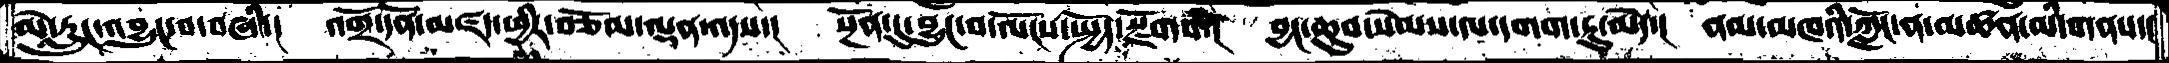མེ་རླུང་འབྱུང་བ་བཞི་།  འགྲོ་དོན་མཛད་ཕྱིར་བཅོམ་ལྡན་འདས་།  སྔོན་དུ་བྱུང་བ་ལོངས་སྤྱོད་སྫོགས་།  བྱང་ཆུབ་སེམས་ལ་དགག་ཏུ་མེད་།  ནམ་མཁའི་ཀློང་ན་མཚན་མི་གནས་།
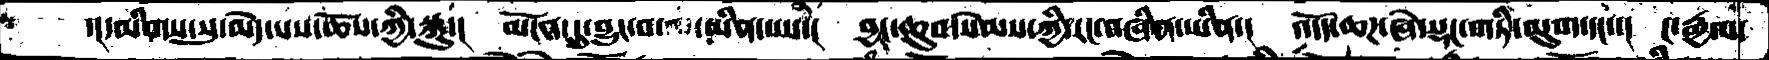་།དམིགས་སུ་མེད་པས་ཆོས་ཀྱི་སྐུ་།  མངོན་དུ་བྱུང་བ་མ་ཡིན་པས་།  བྱང་ཆུབ་སེམས་ཀྱི་རང་བཞིན་ཡིན་།  འདོད་ཆཌ་ཞེ་སྡང་གཏི་མུག་དང་་།  ང་རྒྱལ་
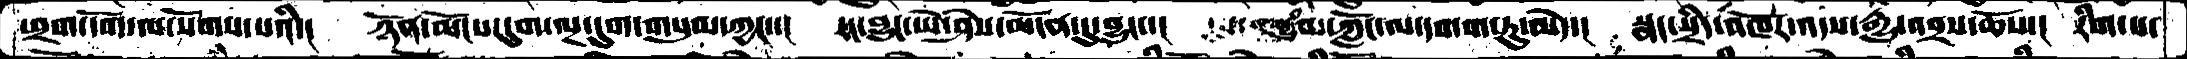ཕྲག་དོག་ལ་སོགས་པའི་།  ཉོན་མོངས་དུག་ལྔ་དུག་གསུམ་ཀྱང་་།  རང་བྱུང་ཡེ་ཤེས་མངོན་དུ་བྱུང་་།  བྱུཾབ་ཀློང་ལ་དགག་ཏུ་མེད་།  སྣང་སྲིད་འཁོར་འདས་རྒྱུ་འབྲས་ཆོས་།  རིག་པ་
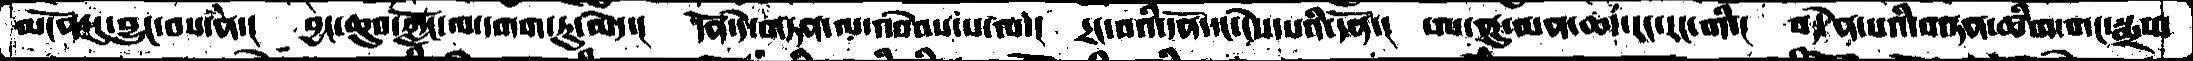མངོན་དུ་བྱུང་བས་ནཾ་།  བྱང་ཆུབ་ཀློང་ལ་དགག་ཏུ་མེད་།  དོན་དེ་གཏན་ལ་འབེབས་པ་ལ་།  དྲང་བའི་དོན་དང་ངེས་པའི་དོན་།   ཨ་ནུ་མན་ཆད་རང་རང་གི་།  བདེན་པའི་གཏན་ཚིག་གང་སྨྲས་
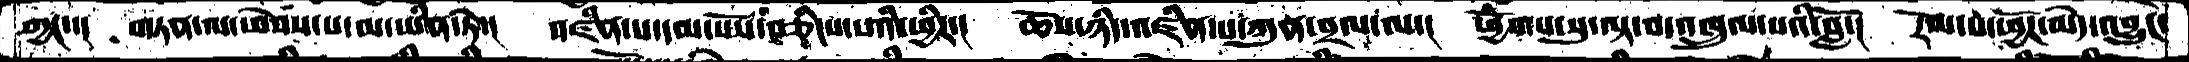ཀྱང་་།  གཏན་ལ་ཕེབས་པ་མ་ཡིན་ཏེ་།  འཛིན་པ་དམ་པོས་བཅིངས་པའི་ཕྱིར་།  ཆོས་ཉིད་འཛིན་པ་ཀུན་བྲལ་ལ་།  ཕྱོགས་སུ་ལྟ་བ་འཁྲུལ་པའི་བློ་།  རོལ་པ་ཕྱོཌ་མེད་འབྱུང་
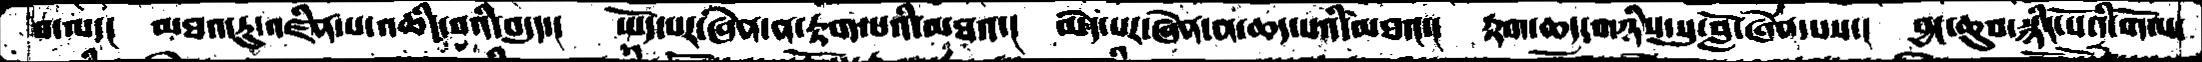བ་ལ་། མཐའ་རུ་འཛིན་པ་འཆིང་བའི་བདུད་།  ཡོད་པར་ཞེན་ན་རྟག་པའི་མཐའ་།  མེད་པརཞེན་ན་ཆད་པའི་མཐའ་།  རྟག་ཆད་གཉིས་སུ་བློ་ཞེན་པས་།  བྱང་ཆུབ་སྙིང་པོའི་གོལ་
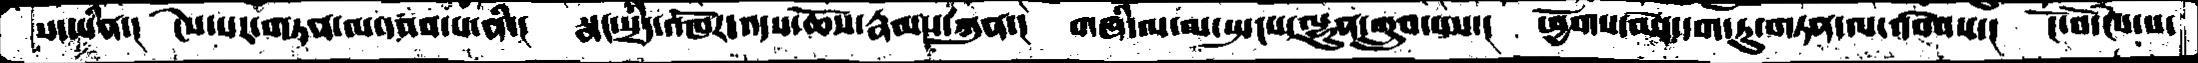ས་་ཡིན་།  ངེས་པར་གཏན་ལ་དབབ་པ་ནི་།  སྣང་སྲིད་འཁོར་འདས་ཆོས་རྣམས་ཀུན་།  གཞི་ལ་མ་སྤངས་ལྷུན་གྲུབ་པས་།  ཕྱོགས་མེད་དག་ཏུ་གཏན་ལ་འབེབས་།  ངོ་བོ་ངེས་པ་
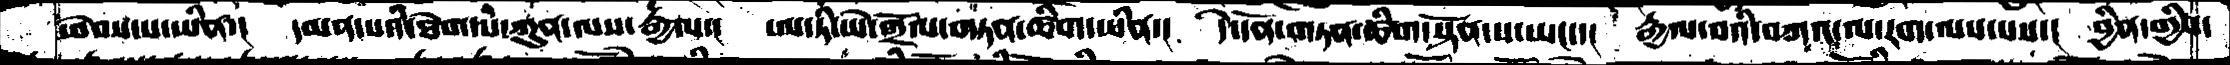ཕེབས་པ་ཡིན་།  དམན་པའི་ཐེག་པ་ཀུན་ལས་རྒྱལ་།  ཨ་ཏི་ཡེ་གྲོལ་གཏན་ཚིག་ཡིན་།  དེ་དོན་གཏན་ཚིག་སྟོན་པ་ཡང་་། རྒྱལ་བའི་བཀའ་ལ་རག་ལས་པས་།  བྱིན་གྱིས་
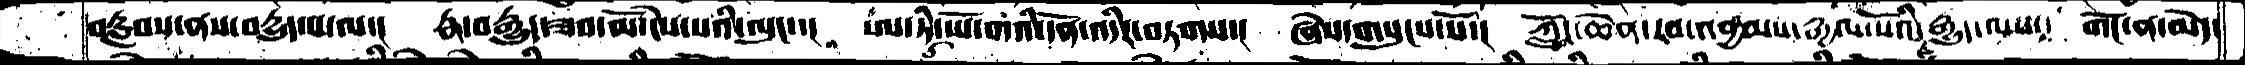བརླབས་ནས་བདྱུད་པ་ལ་།  རྣ་བརྒྱུད་ཟབ་མོ་ངེས་པའི་ལུང་་།  ཨ་ཏི་ཡོ་གའི་དོན་འདིར་བཏགས་།  ཞེས་གསུངས་སོ་།  ཀློང་ཆེན་རབ་འབྱམས་རྒྱལ་པོའི་རྒྱུད་ལས་། གོང་ན་མེད་
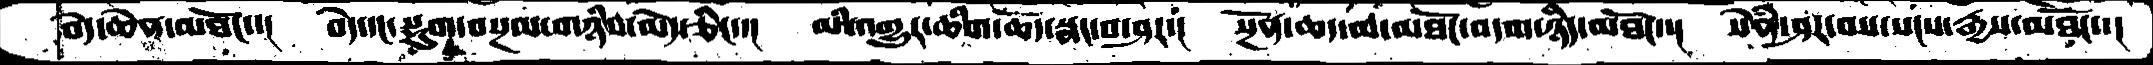བདེ་ཆེན་མཐོང་་།  བདེ་དང་སྡུག་བསྔལ་གཉིས་མེད་ཅིང་་། མི་འགྱུར་ཆིག་ཆོད་སྣང་བ་ཤར་།  སྔོན་ཆད་མ་མཐོང་བདག་ཉིད་མཐོང་་།  སེཾན་ཤར་བས་སངས་རྒྱས་མཐོང་་།
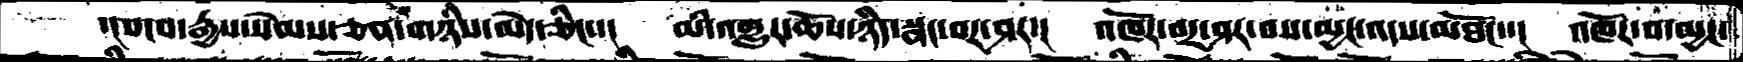་།སངས་རྒྱས་སེམས་ཅན་གཉིས་མེད་ཅིང་་།  མི་འགྱུར་ཆོས་ཉིད་སྣང་བར་ཤར་།  འཁོར་བར་ཤར་བས་མྱང་འདས་མཐོང་་།  འཁོར་བ་མྱང་
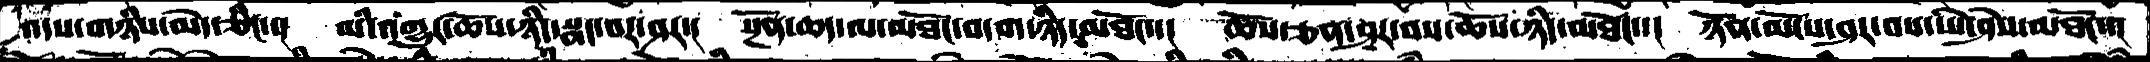འདས་གཉིས་མེད་ཅིང་་།  མི་འགྱུར་ཆོས་ཉིད་སྣང་བར་ཤར་།  སྔོན་ཆད་མ་མཐོང་བདག་ཉིད་མཐོང་་།  ཆོས་ཅན་ཤར་བས་ཆོས་ཉིད་མཐོང་་།  ཉོན་མོངས་ཤར་བས་ཡེ་ཤེས་མཐོང་་།
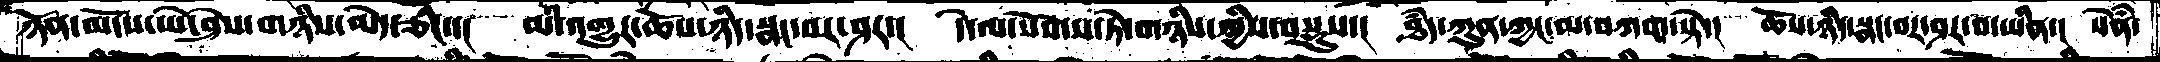ཉོན་མོངས་ཡེ་ཤེས་གཉིས་མེད་ཅིང་་།  མི་འགྱུར་ཆོས་ཉིད་སྣང་བར་ཤར་།  དེ་ལ་སོགས་ཏེ་གཉིས་ཀྱིས་བསྡུས་།  ཐཾད་ཀུན་ཀྱང་མ་བཀག་སྟེ་།  ཆོས་ཉིད་སྣང་བར་ཤར་བ་་ཡིན་།  སེཾན་
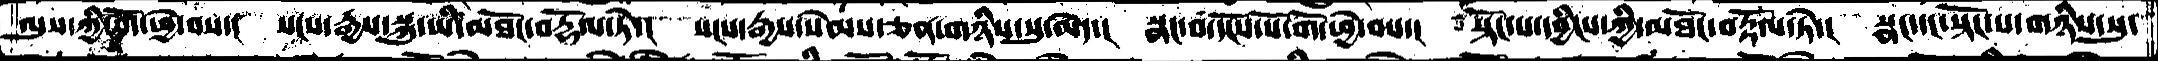ལུས་ཀྱི་གོ་ཕྱེ་བས་།  སངས་རྒྱས་སྐུ་ཡི་མཐོང་བརྡོལ་ཏེ་།  སངས་རྒྱས་སེམས་ཅན་གཉིས་སུ་མེད་།  སྣང་བ་དངོས་པོ་གོ་ཕྱེ་བས་།  སྟོང་པ་དབྱིངས་ཀྱི་མཐོང་བརྟོལ་ཏེ་།  སྣང་དང་སྟོང་པ་གཉིས་སུ་
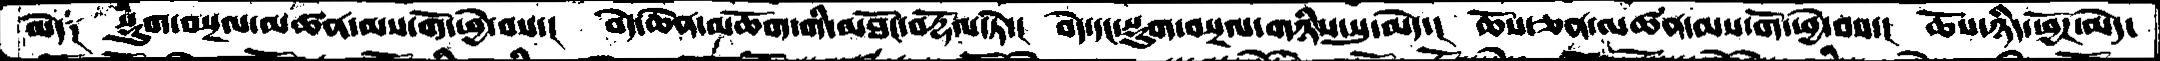མེད༑   སྡུག་བསྔལ་མཚན་མས་གོ་ཕྱེ་བས་།  བདེ་ཆེན་མཆོག་གི་མཐོང་བརྡོལ་ཏེ་།  བདེ་དང་སྡུག་བསྔལ་གཉིས་སུ་མེད་།  ཆོས་ཅན་མཚན་མས་གོ་ཕྱེ་བས་།  ཆོས་ཉིད་ཕྱོཌ་མེད་
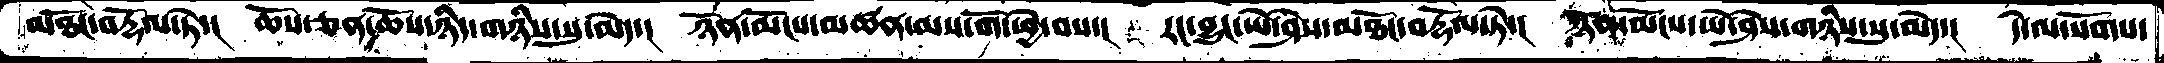མཐོང་བརྡོལ་ཏེ་།  ཆོས་ཅན་ཆོས་ཉིད་གཉིས་སུ་མེད་།  ཉོན་མོངས་མཚན་མས་གོ་ཕྱེ་བས་།  རང་བྱུང་ཡེ་ཤེས་མཐོང་བརྡོལ་ཏེ་།  ཉོན་མོངས་ཡེ་ཤེས་གཉིས་སུ་མེད་།  དེ་ལ་སོགས་
